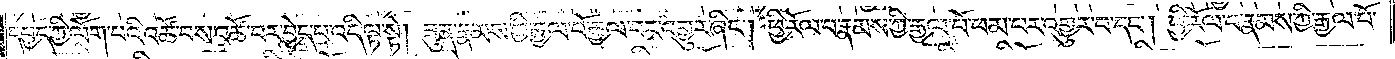དཔྱད་ཀྱི་ལོག་པའི་འཚོ་བས་འཚོ་བར་བྱེད་པ་འདི་ལྟ་སྟེ། ཟུན་རྣམས་ཀྱི་རྒྱལ་པོ་རྒྱལ་བར་འགྱུར་ཞིང༌། ཕྱི་རོལ་པ་རྣམས་ཀྱི་རྒྱལ་པོ་ཕམ་པར་འགྱུར་བ་དང༌། ཕྱི་རོལ་པ་རྣམས་ཀྱི་རྒྱལ་པོ་
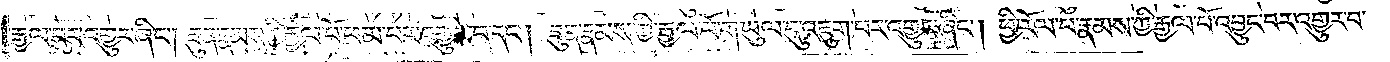རྒྱལ་བར་འགྱུར་ཞིང༌། ཟུན་རྣམས་ཀྱི་རྒྱལ་པོ་ཕམ་པར་འགྱུར་བ་དང༌། ཟུན་རྣམས་ཀྱི་རྒྱལ་པོ་གཡུལ་དུ་འཇུག་པར་འགྱུར་ཞིང༌། ཕྱི་རོལ་པ་རྣམས་ཀྱི་རྒྱལ་པོ་འབྱུང་བར་འགྱུར་བ་
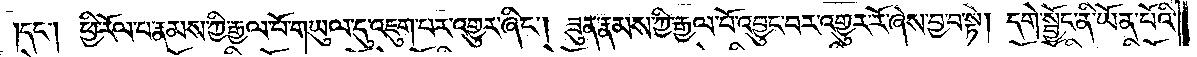དང༌། ཕྱི་རོལ་པ་རྣམས་ཀྱི་རྒྱལ་པོ་གཡུལ་དུ་འཇུག་པར་འགྱུར་ཞིང༌། ཟུན་རྣམས་ཀྱི་རྒྱལ་པོ་འབྱུང་བར་འགྱུར་རོ་ཞེས་བྱ་བ་སྟེ། དགེ་སྦྱོང་ནི་ཡོན་པོའི་
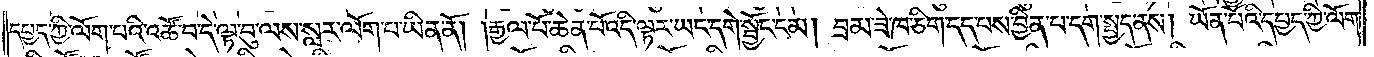དཔྱད་ཀྱི་ལོག་པའི་འཚོ་བ་དེ་ལྟ་བུ་ལས་སླར་ལོག་པ་ཡིན་ནོ། །རྒྱལ་པོ་ཆེན་པོ་འདི་ལྟར་ཡང་དགེ་སྦྱོང་ངམ། བྲམ་ཟེ་ཁ་ཅིག་དད་པས་བྱིན་པ་དག་སྤྱད་ནས། ཡོན་པོའི་དཔྱད་ཀྱི་ལོག་
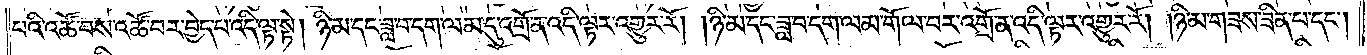པའི་འཚོ་བས་འཚོ་བར་བྱེད་པ་འདི་ལྟ་སྟེ། ཉི་མ་དང་ཟླ་བ་དག་ལམ་དུ་འགྲོ་ན་འདི་ལྟར་འགྱུར་རོ། །ཉི་མ་དང་ཟླ་བ་དག་ལམ་གོལ་བར་འགྲོ་ན་འདི་ལྟར་འགྱུར་རོ། །ཉི་མ་གཟས་ཟིན་པ་དང༌།
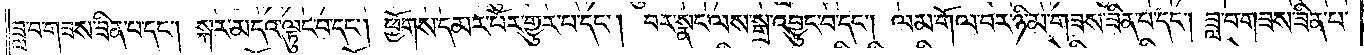ཟླ་བ་གཟས་ཟིན་པ་དང༌། སྐར་མདའ་ལྟུང་བ་དང༌། ཕྱོགས་དམར་པོར་གྱུར་པ་དང༌། བར་སྣང་ལས་སྒྲ་འབྱུང་བ་དང༌། ལམ་གོལ་བར་ཉི་མ་གཟས་ཟིན་པ་དང༌། ཟླ་བ་གཟས་ཟིན་པ་
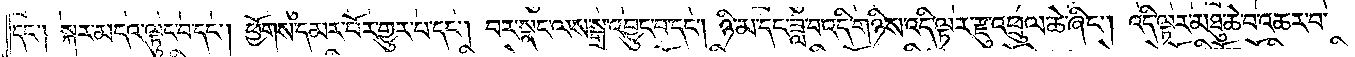དང༌། སྐར་མདའ་ལྟུང་བ་དང༌། ཕྱོགས་དམར་པོར་གྱུར་པ་དང༌། བར་སྣང་ལས་སྒྲ་འབྱུང་བ་དང༌། ཉི་མ་དང་ཟླ་བ་འདི་གཉིས་འདི་ལྟར་རྫུ་འཕྲུལ་ཆེ་ཞིང༌། འདི་ལྟར་མཐུ་ཆེ་བ་འཆར་བ་
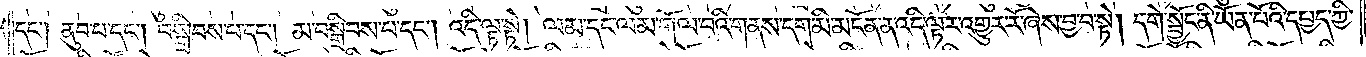དང༌། ནུབ་པ་དང༌། བསྒྲིབས་པ་དང༌། མ་བསྒྲིབས་པ་དང༌། འདི་ལྟ་སྟེ། ལམ་དང་ལམ་གོལ་བའི་གནས་དག་མི་མངོན་ན་འདི་ལྟར་འགྱུར་རོ་ཞེས་བྱ་བ་སྟེ། དགེ་སྦྱོང་ནི་ཡོན་པོའི་དཔྱད་ཀྱི་
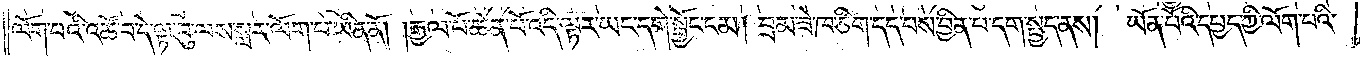ལོག་པའི་འཚོ་བ་དེ་ལྟ་བུ་ལས་སླར་ལོག་པ་ཡིན་ནོ། །རྒྱལ་པོ་ཆེན་པོ་འདི་ལྟར་ཡང་དགེ་སྦྱོང་ངམ། བྲམ་ཟེ་ཁ་ཅིག་དད་པས་བྱིན་པ་དག་སྤྱད་ནས། ཡོན་པོའི་དཔྱད་ཀྱི་ལོག་པའི་
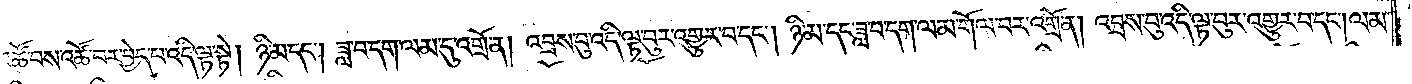འཚོ་བས་འཚོ་བར་བྱེད་པ་འདི་ལྟ་སྟེ། ཉི་མ་དང༌། ཟླ་བ་དག་ལམ་དུ་འགྲོ་ན། འབྲས་བུ་འདི་ལྟ་བུར་འགྱུར་བ་དང༌། ཉི་མ་དང་ཟླ་བ་དག་ལམ་གོལ་བར་འགྲོ་ན། འབྲས་བུ་འདི་ལྟ་བུར་འགྱུར་བ་དང༌། ལམ་
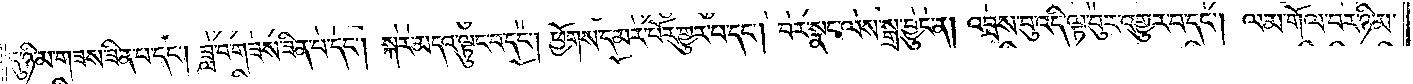དུ་ཉི་མ་གཟས་ཟིན་པ་དང༌། ཟླ་བ་གཟས་ཟིན་པ་དང༌། སྐར་མདའ་ལྟུང་བ་དང༌། ཕྱོགས་དམར་པོར་གྱུར་བ་དང༌། བར་སྣང་ལས་སྒྲ་བྱུང་ན། འབྲས་བུ་འདི་ལྟ་བུར་འགྱུར་བ་དང༌། ལམ་གོལ་བར་ཉི་མ་
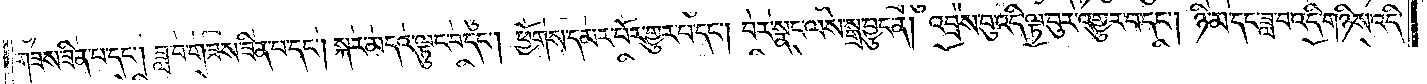གཟས་ཟིན་པ་དང༌། ཟླ་བ་གཟས་ཟིན་པ་དང༌། སྐར་མདའ་ལྟུང་བ་དང༌། ཕྱོགས་དམར་པོར་གྱུར་པ་དང༌། བར་སྣང་ལས་སྒྲ་བྱུང་ན། འབྲས་བུ་འདི་ལྟ་བུར་འགྱུར་བ་དང༌། ཉི་མ་དང་ཟླ་བ་འདི་གཉིས་འདི་
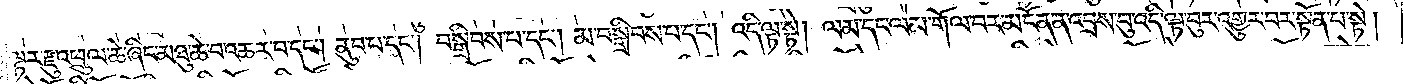ལྟར་རྫུ་འཕྲུལ་ཆེ་ཞིང་མཐུ་ཆེ་བ་འཆར་བ་དང༌། ནུབ་པ་དང༌། བསྒྲིབས་པ་དང༌། མ་བསྒྲིབས་པ་དང༌། འདི་ལྟ་སྟེ། ལམ་དང་ལམ་གོལ་བར་མངོན་ན་འབྲས་བུ་འདི་ལྟ་བུར་འགྱུར་བར་སྟོན་པ་སྟེ།
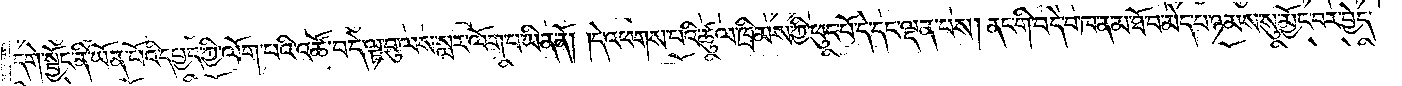དགེ་སྦྱོང་ནི་ཡོན་པོའི་དཔྱད་ཀྱི་ལོག་པའི་འཚོ་བ་དེ་ལྟ་བུ་ལས་སླར་ལོག་པ་ཡིན་ནོ། །དེ་འཕགས་པའི་ཚུལ་ཁྲིམས་ཀྱི་ཕུང་པོ་དེ་དང་ལྡན་པས། ནང་གི་བདེ་བ་ཁ་ན་མ་ཐོ་བ་མེད་པ་ཉམས་སུ་མྱོང་བར་བྱེད་
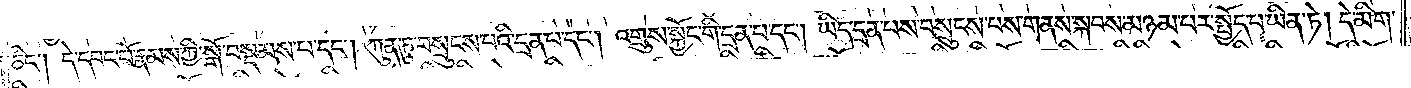ཅིང༌། དེ་དབང་པོ་རྣམས་ཀྱི་སྒོ་བསྡམས་པ་དང༌། ཀུན་ཏུ་བསྲུངས་པའི་དྲན་པ་དང༌། འགྲུས་སྐྱོང་གི་དྲན་པ་དང༌། ཡིད་དྲན་པས་བསྲུངས་པས་གནས་སྐབས་མཉམ་པར་སྤྱོད་པ་ཡིན་ཏེ། དེ་མིག་
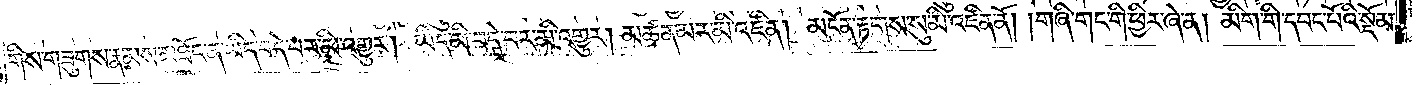གིས་གཟུགས་རྣམས་མཐོང་ན་ཡིད་བདེ་བར་མི་འགྱུར། ཡིད་མི་བདེ་བར་མི་འགྱུར། མཚན་མར་མི་འཛིན། མངོན་རྟགས་སུ་མི་འཛིན་ནོ། །གཞི་གང་གི་ཕྱིར་ཞེ་ན། མིག་གི་དབང་པོའི་སྡོམ་
